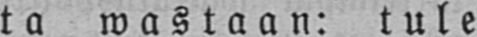ta wastaan: tule
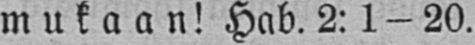mukaan! Hab. 2: 1 - 20.
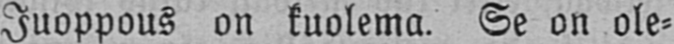Juoppous on kuolema. Se on ole-
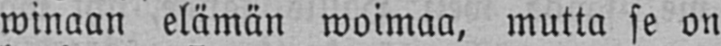winaan elämän woimaa, mutta se on
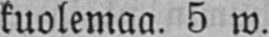kuolemaa. 5 w.
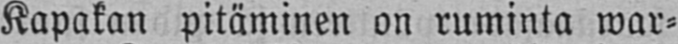Kapakan pitäminen on ruminta war-
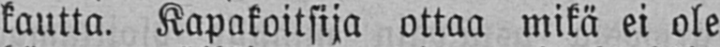kautta. Kapakoitsija ottaa mikä ei ole
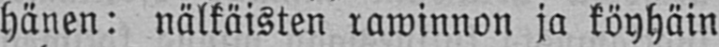hänen: nälkäisten rawinnon ja köyhäin
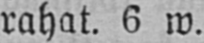rahat. 6 w.
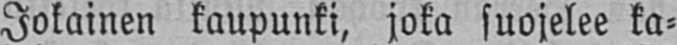Jokainen kaupunki, joka suojelee ka-
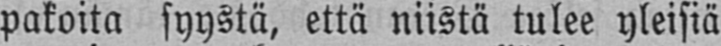pakoita syystä, että niistä tulee yleisiä
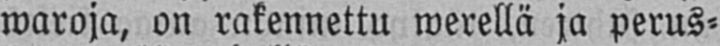waroja, on rakennettu werellä ja perus-
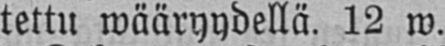tettu wääryydellä. 12 w.
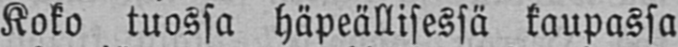Koko tuossa häpeällisessä kaupassa
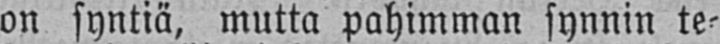on syntiä, mutta pahimman synnin te-
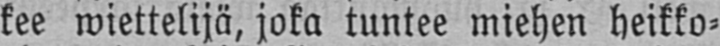kee wiettelijä, joka tuntee miehen heikko-
